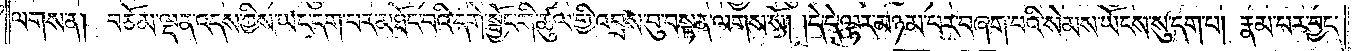ལགས་ན། བཅོམ་ལྡན་འདས་ཀྱིས་ཡང་དག་པར་མཐོང་བའི་དགེ་སྦྱོང་གི་ཚུལ་གྱི་འབྲས་བུ་བསྟན་ལགས་སོ། །དེ་དེ་ལྟར་མཉམ་པར་བཞག་པའི་སེམས་ཡོངས་སུ་དག་པ། རྣམ་པར་བྱང་
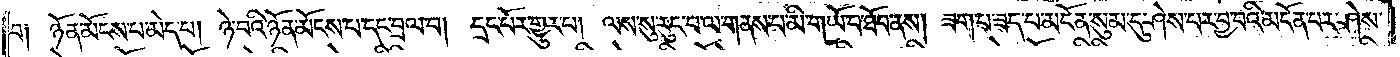བ། ཉོན་མོངས་པ་མེད་པ། ཉེ་བའི་ཉོན་མོངས་པ་དང་བྲལ་བ། དྲང་པོར་གྱུར་པ། ལས་སུ་རུང་བ་ལ་གནས་པ་མི་གཡོ་བ་ཐོབ་ནས། ཟག་པ་ཟད་པ་མངོན་སུམ་དུ་ཤེས་པར་བྱ་བའི་མངོན་པར་ཤེས་
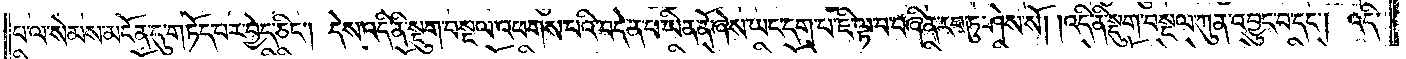པ་ལ་སེམས་མངོན་དུ་གཏོད་པར་བྱེད་ཅིང༌། དེས་འདི་ནི་སྡུག་བསྔལ་འཕགས་པའི་བདེན་པ་ཡིན་ནོ་ཞེས་ཡང་དག་པ་ཇི་ལྟ་བ་བཞིན་རབ་ཏུ་ཤེས་སོ། །འདི་ནི་སྡུག་བསྔལ་ཀུན་འབྱུང་བ་དང༌། འདི་
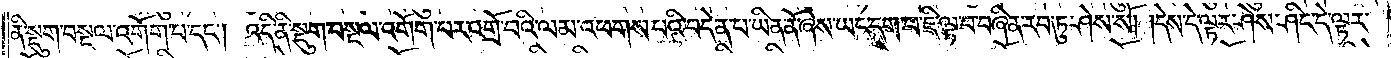ནི་སྡུག་བསྔལ་འགོག་པ་དང༌། འདི་ནི་སྡུག་བསྔལ་འགོག་པར་འགྲོ་བའི་ལམ་འཕགས་པའི་བདེན་པ་ཡིན་ནོ་ཞེས་ཡང་དག་པ་ཇི་ལྟ་བ་བཞིན་རབ་ཏུ་ཤེས་སོ། །དེས་དེ་ལྟར་ཤེས་ཤིང་དེ་ལྟར་
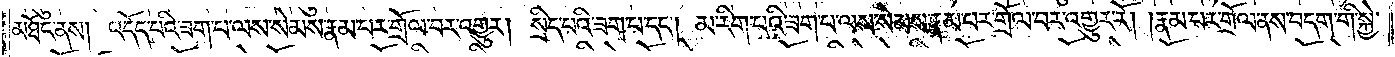མཐོང་ནས། འདོད་པའི་ཟག་པ་ལས་སེམས་རྣམ་པར་གྲོལ་བར་འགྱུར། སྲིད་པའི་ཟག་པ་དང༌། མ་རིག་པའི་ཟག་པ་ལས་སེམས་རྣམ་པར་གྲོལ་བར་འགྱུར་རོ། །རྣམ་པར་གྲོལ་ནས་བདག་གི་སྐྱེ་
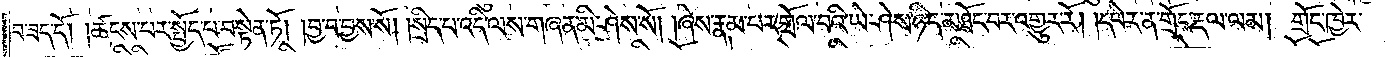བ་ཟད་དོ། །ཚངས་པར་སྤྱོད་པ་བསྟེན་ཏོ། །བྱ་བ་བྱས་སོ། །སྲིད་པ་འདི་ལས་གཞན་མི་ཤེས་སོ། །ཞེས་རྣམ་པར་གྲོལ་བའི་ཡེ་ཤེས་ཉིད་མཐོང་བར་འགྱུར་རོ། །དཔེར་ན་གྲོང་རྡལ་ལམ། གྲོང་ཁྱེར་
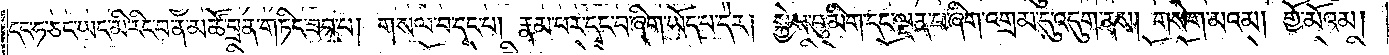དང་ཧ་ཅང་ཡང་མི་རིང་བ་ན་མཚོ་བྲན་གཏིང་ཟབ་པ། གསལ་བ་དང་པ། རྣམ་པར་དྭང་བ་ཞིག་ཡོད་པ་དེར། སྐྱེས་བུ་མིག་དང་ལྡན་པ་ཞིག་འགྲམ་དུ་འདུག་ནས། གསེག་མའམ། གྱོ་མོའམ།
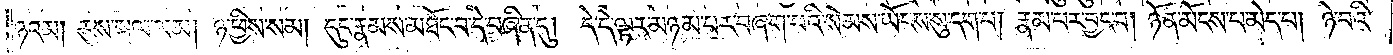ཉའམ། རུས་སྦལ་ལམ། ཉ་ཕྱིས་སམ། དུང་རྣམས་མཐོང་བ་དེ་བཞིན་དུ། དེ་དེ་ལྟར་མཉམ་པར་བཞག་པའི་སེམས་ཡོངས་སུ་དག་པ། རྣམ་པར་བྱང་བ། ཉོན་མོངས་པ་མེད་པ། ཉེ་བའི་
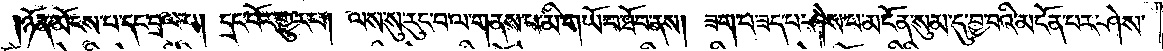ཉོན་མོངས་པ་དང་བྲལ་པ། དྲང་པོར་གྱུར་པ། ལས་སུ་རུང་བ་ལ་གནས་པ་མི་གཡོ་བ་ཐོབ་ནས། ཟག་པ་ཟད་པ་ཤེས་པ་མངོན་སུམ་དུ་བྱ་བའི་མངོན་པར་ཤེས་
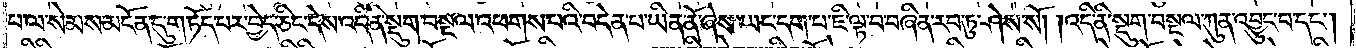པ་ལ་སེམས་མངོན་དུ་གཏོད་པར་བྱེད་ཅིང་དེས་འདི་ནི་སྡུག་བསྔལ་འཕགས་པའི་བདེན་པ་ཡིན་ནོ་ཞེས་ཡང་དག་པ་ཇི་ལྟ་བ་བཞིན་རབ་ཏུ་ཤེས་སོ། །འདི་ནི་སྡུག་བསྔལ་ཀུན་འབྱུང་བ་དང༌།
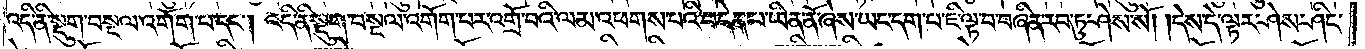འདི་ནི་སྡུག་བསྔལ་འགོག་པ་དང༌། འདི་ནི་སྡུག་བསྔལ་འགོག་པར་འགྲོ་བའི་ལམ་འཕགས་པའི་བདེན་པ་ཡིན་ནོ་ཞེས་ཡང་དག་པ་ཇི་ལྟ་བ་བཞིན་རབ་ཏུ་ཤེས་སོ། །དེས་དེ་ལྟར་ཤེས་ཤིང་
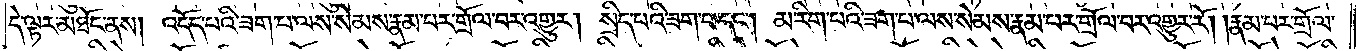དེ་ལྟར་མཐོང་ནས། འདོད་པའི་ཟག་པ་ལས་སེམས་རྣམ་པར་གྲོལ་བར་འགྱུར། སྲིད་པའི་ཟག་པ་དང༌། མ་རིག་པའི་ཟག་པ་ལས་སེམས་རྣམ་པར་གྲོལ་བར་འགྱུར་རོ། །རྣམ་པར་གྲོལ་
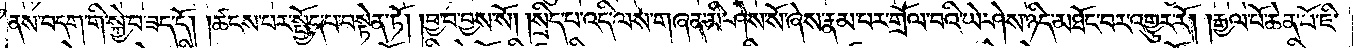ནས་བདག་གི་སྐྱེ་བ་ཟད་དོ། །ཚངས་པར་སྤྱོད་པ་བསྟེན་ཏོ། །བྱ་བ་བྱས་སོ། །སྲིད་པ་འདི་ལས་གཞན་མི་ཤེས་སོ་ཞེས་རྣམ་པར་གྲོལ་བའི་ཡེ་ཤེས་ཉིད་མཐོང་བར་འགྱུར་རོ། །རྒྱལ་པོ་ཆེན་པོ་ཇི་
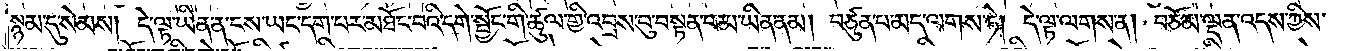སྙམ་དུ་སེམས། དེ་ལྟ་ཡིན་ན་ངས་ཡང་དག་པར་མཐོང་བའི་དགེ་སྦྱོང་གི་ཚུལ་གྱི་འབྲས་བུ་བསྟན་པ་མ་ཡིན་ནམ། བཙུན་པ་མད་ལགས་ཏེ། དེ་ལྟ་ལགས་ན། བཅོམ་ལྡན་འདས་ཀྱིས་
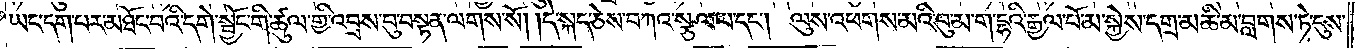ཡང་དག་པར་མཐོང་བའི་དགེ་སྦྱོང་གི་ཚུལ་གྱི་འབྲས་བུ་བསྟན་ལགས་སོ། །དེ་སྐད་ཅེས་བཀའ་སྩལ་པ་དང༌། ལུས་འཕགས་མའི་བུ་མ་ག་དྷའི་རྒྱལ་པོ་མ་སྐྱེས་དགྲ་མཆི་མ་བླགས་ཏེ་དུས་
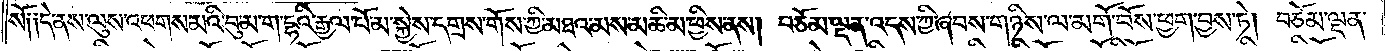སོ། །དེ་ནས་ལུས་འཕགས་མའི་བུ་མ་ག་དྷའི་རྒྱལ་པོ་མ་སྐྱེས་དགྲས་གོས་ཀྱི་མཐའ་མས་མཆི་མ་ཕྱིས་ནས། བཅོམ་ལྡན་འདས་ཀྱི་ཞབས་གཉིས་ལ་མགོ་བོས་ཕྱག་བྱས་ཏེ། བཅོམ་ལྡན་
